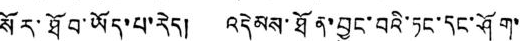སོར་ཐོབ་ཡོད་པ་རེད། འདེམས་ཐོན་བྱུང་བའི་ཏང་དང་ཤོག་
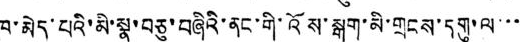ཁ་མེད་པའི་མི་སྣ་བཅུ་བཞིའི་ནང་གི་འོས་སྒུག་མི་གྲངས་དགུ་ལ་་་
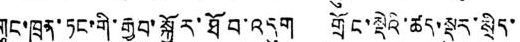གུང་ཁྲན་ཏང་གི་རྒྱབ་སྐྱོར་ཐོབ་འདུག གྲོང་སྡེའི་ཚད་སྡུར་སྲིད་
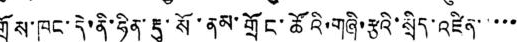གྲོས་ཁང་དེ་ནི་ཧིན་རྡུ་སོ་ནམ་གྲོང་ཚོའི་གཞི་རྩའི་སྲིད་འཛིན་་་་་
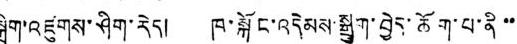སྒྲིག་འཛུགས་ཤིག་རེད། ཁ་སྐོང་འདེམས་སྒྲུག་བྱེད་ཆོག་པ་ནི་་
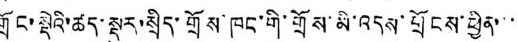གྲོང་སྡེའི་ཚད་སྡུར་སྲིད་གྲོས་ཁང་གི་གྲོས་མི་འདས་གྲོངས་ཕྱིན་་་
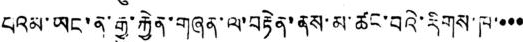པའམ་ཡང་ན་རྒྱུ་རྐྱེན་གཞན་ལ་བརྟེན་ནས་མ་ཚང་བའི་རིགས་ཁ་་་་
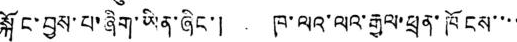སྐོང་བྱས་པ་ཞིག་ཡིན་ཞིང་། ཁ་ལའ་ལའ་རྒྱལ་ཕྲན་ཁོངས་་་་
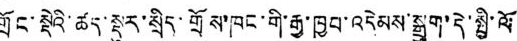གྲོང་སྡེའི་ཚད་སྡུར་སྲིད་གྲོས་ཁང་གི་རྒྱ་ཁྱབ་འདེམས་སྒྲུག་དེ་སྤྱི་ལོ
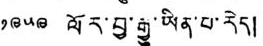༡༩༥༩ ལོར་བྱ་རྒྱུ་ཡིན་པ་རེད།
